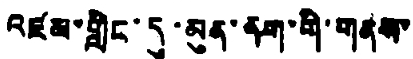འཛམ་གླིང་དུ་མུན་ནག་གི་གནས་
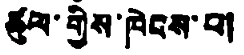ཚུལ་གྱིས་ཁེངས་པ།
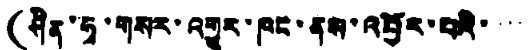(ཤིན་ཧྭ་གསར་འགྱུར་ཁང་ནས་འབྱོར་པའི་་་་
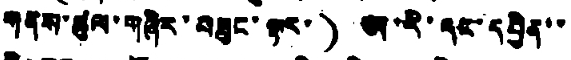གནས་ཚུལ་གཞིར་བཟུང་ལྟར་) ཨ་རི་དང་དབྱིན་་
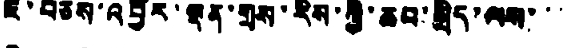ཇི་བཅས་འབྱོར་ལྡན་གྲས་རིས་ཀྱི་ཆབ་སྲིད་ལས་་་
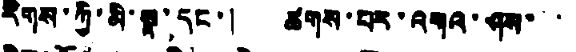རིགས་ཀྱི་མི་སྣ་དང་། ཚགས་པར་འགའ་ཤས་་
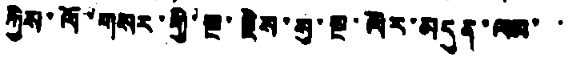ཀྱིས་ལོ་གསར་གྱི་སྔ་རྗེས་སུ་སྔ་ལོར་མདུན་ལམ་་
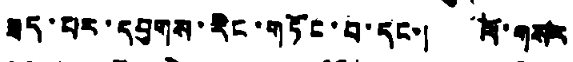ཟད་པར་དབུགས་རིང་གཏོང་བ་དང་། ལོ་གསར
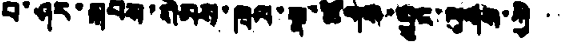པ་ཤར་སྐབས་སེམས་ཁྲལ་སྣ་ཚོགས་བྱུང་ལུགས་ཀྱི་་
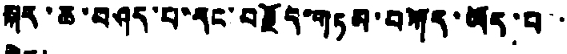སྐད་ཆ་བཤད་པ་དང་བརྗོད་གཏམ་བཀོད་ཡོད་པ་་
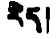རེད།
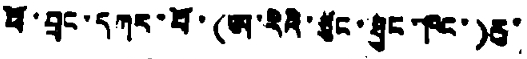ཕོ་བྲང་དཀར་པོ་(ཨ་རིའི་ཙུང་ཐུང་ཁང་)རུ་
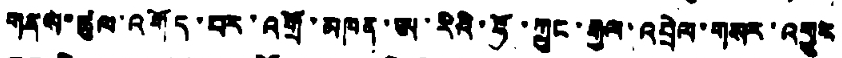གནས་ཚུལ་འགོད་པར་འགྲོ་མཁན་ཨ་རིའི་ཧོ་ཀྲུང་རྒྱལ་འབྲེལ་གསར་འགྱུར
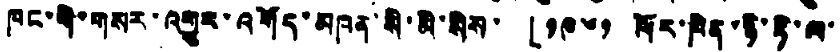ཁང་གི་གསར་འགྱུར་འགོད་མཁན་སི་མི་སིས་「༡༩༦༡ ལོར་ཁིན་ཉི་ཏི་ལ་
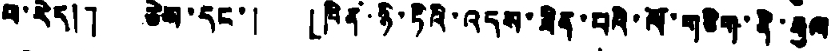བ་རེད།」 ཅེས་དང་། 「ཁིན་ཉི་ཏིའི་འདས་ཟིན་པའི་ལོ་གཅིག་ནི་རྒྱལ
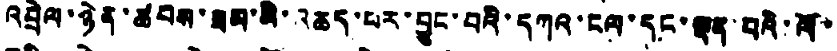འབྲེལ་ཉེན་ཚབས་ཟམ་མི་འཆད་པར་བྱུང་བའི་དཀའ་ངལ་དང་སྡན་པའི་ལོ་
